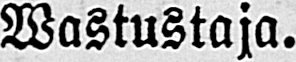Wastustaja.
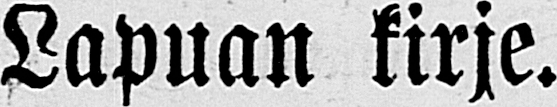Lapuan kirje.
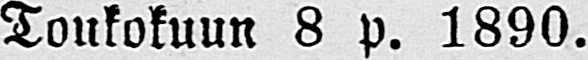Toukokuun 8 p. 1890.
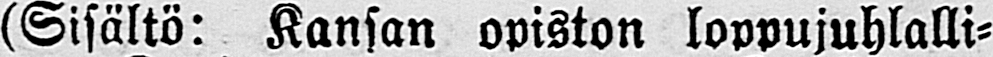(Sisältö: Kansan opiston loppujuhlalli-
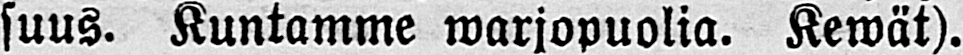suus. Kuntamme warjopuolia. Kewät).
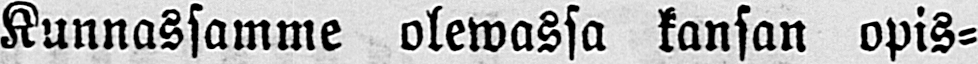Kunnassamme olewassa kansan opis-
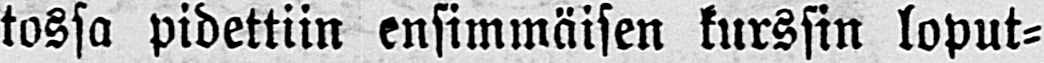tossa pidettiin ensimmäisen kurssin loput-
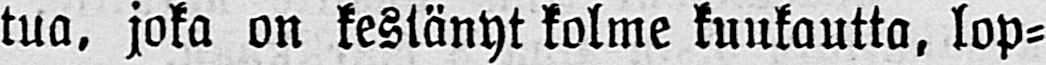tua, joka on kestänyt kolme kuukautta, lop-
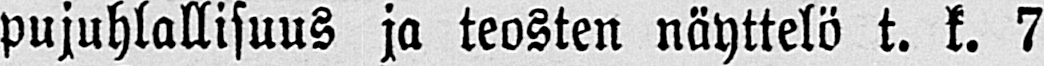pujuhlallisuus ja teosten näyttelö t. k. 7
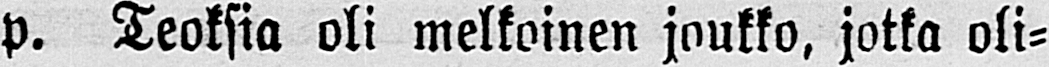p. Teoksia oli melkoinen joukko, jotka oli-
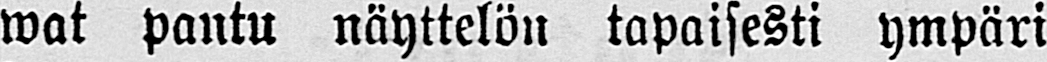wat pantu näyttelön tapaisesti ympäri
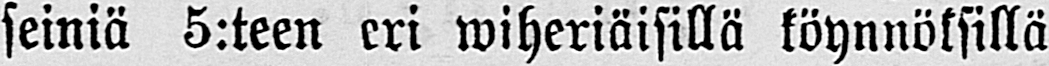seiniä 5:teen eri wiheriäisillä köynnöksillä
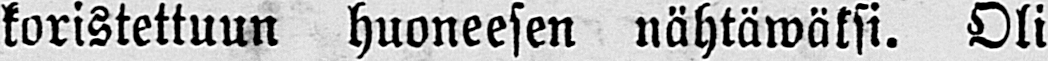koristettuun huoneesen nähtäwäksi. Oli
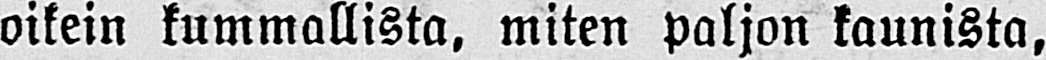oikein kummallista, miten paljon kaunista,
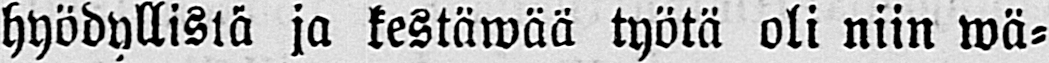hyödyllistä ja kestäwää työtä oli niin wä-
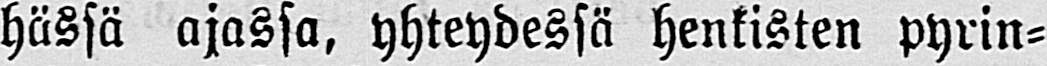hässä ajassa, yhteydessä henkisten pyrin-
